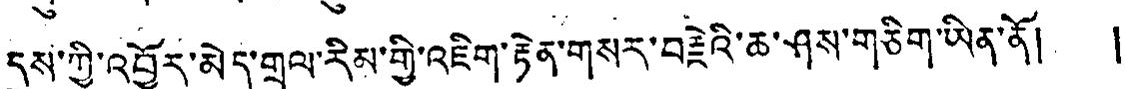དུས་ཀྱི་འབྱོར་མེད་གྲལ་རིམ་གྱི་འཇིག་རྟེན་གསར་བརྗེའི་ཆ་ཤས་གཅིག་ཡིན་ནོ། །
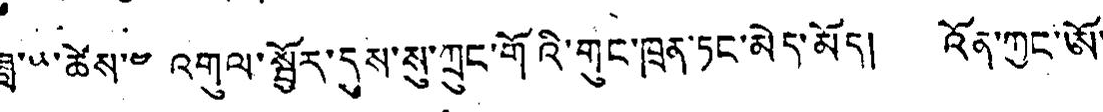ཟླ་༥་ཚེས་༤ འགུལ་སྦྱོར་དུས་སུ་ཀྲུང་གོའི་གུང་ཁྲན་ཏང་མེད་མོད། འོན་ཀྱང་ཨོ་
